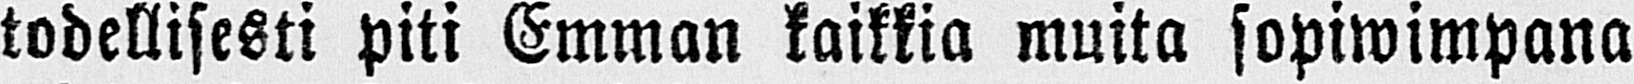todellisesti piti Emman kaikkia muita sopiwimpana
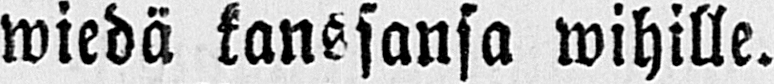wiedä kanssansa wihille.
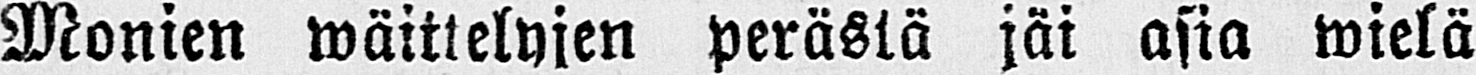Monien wäittelyjen perästä jäi asia wielä
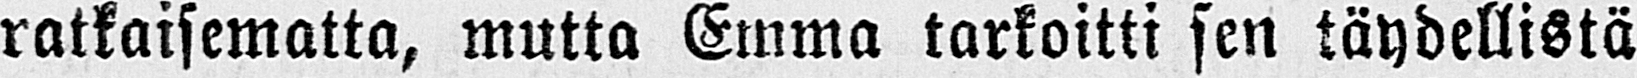ratkaisematta, mutta Emma tarkoitti sen täydellistä
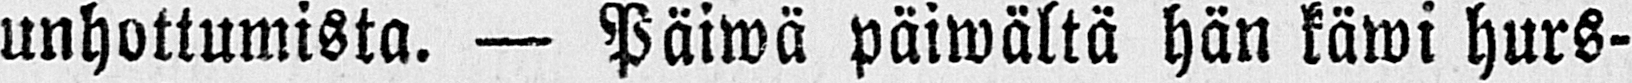unhottumista. — Päiwä päiwältä hän käwi hurs-
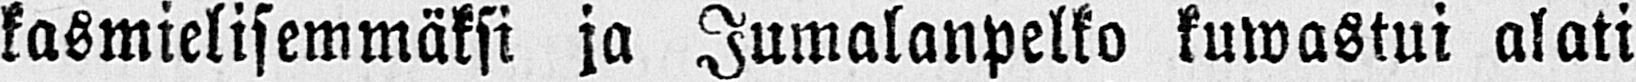kasmielisemmäksi ja Jumalanpelko kuwastui alati
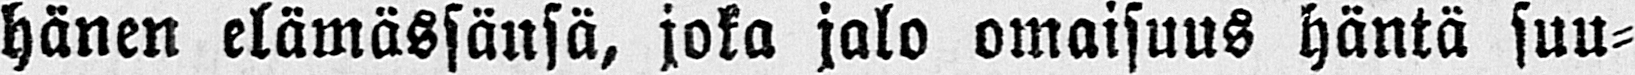hänen elämässänsä, joka jalo omaisuus häntä suu-
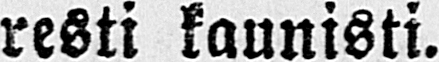resti kaunisti.
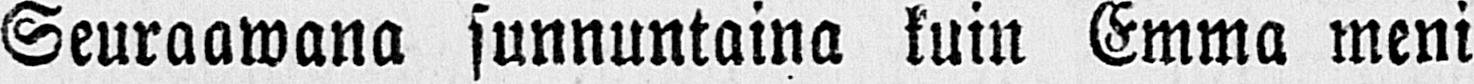Seuraawana sunnuntaina kuin Emma meni
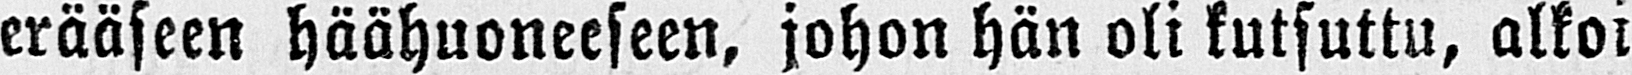erääseen häähuoneeseen, johon hän oli kutsuttu, alkoi
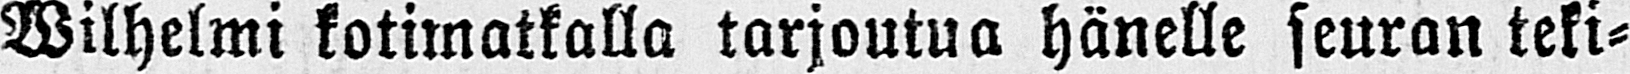Wilhelmi kotimatkalla tarjoutua hänelle seuran teki-
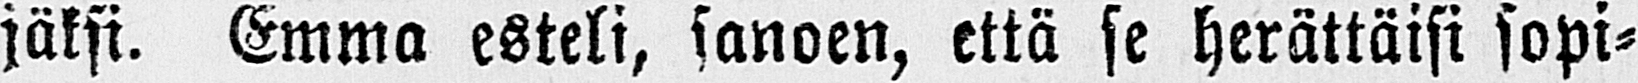jäksi. Emma esteli, sanoen, että se herättäisi sopi-
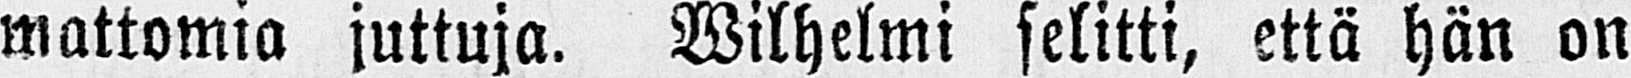mattomia juttuja. Wilhelmi selitti, että hän on
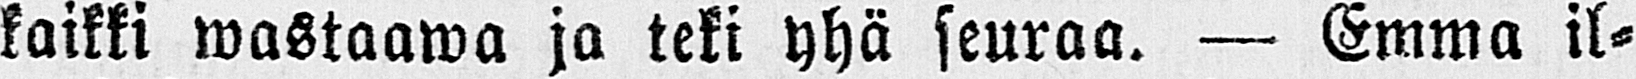kaikki wastaawa ja teki yhä seuraa. — Emma il-
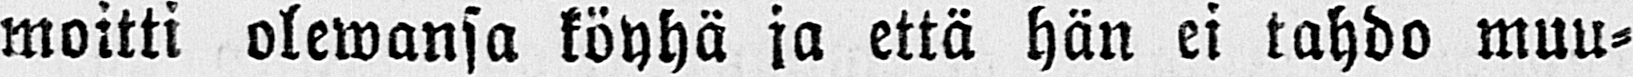moitti olewansa köyhä ja että hän ei tahdo muu-
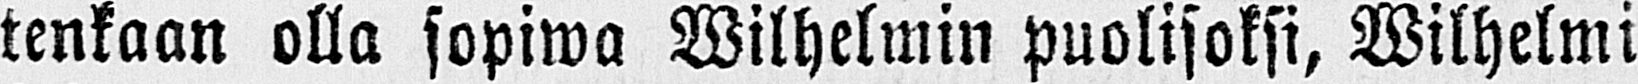tenkaan olla sopiwa Wilhelmin puolisoksi, Wilhelmi
